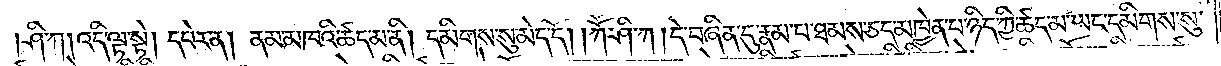ཤི་ཀ །འདི་ལྟ་སྟེ། དཔེར་ན། ནམ་མཁའི་ཚད་མ་ནི། དམིགས་སུ་མེད་དོ། །ཀཽ་ཤི་ཀ །དེ་བཞིན་དུ་རྣམ་པ་ཐམས་ཅད་མཁྱེན་པ་ཉིད་ཀྱི་ཚད་མ་ཡང་དམིགས་སུ་
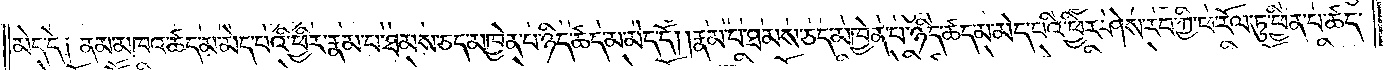མེད་དེ༑ ནམ་མཁའ་ཚད་མ་མེད་པའི་ཕྱིར་རྣམ་པ་ཐམས་ཅད་མཁྱེན་པ་ཉིད་ཚད་མ་མེད་དོ། །རྣམ་པ་ཐམས་ཅད་མཁྱེན་པ་ཉིད་ཚད་མ་མེད་པའི་ཕྱིར་ཤེས་རབ་ཀྱི་ཕ་རོལ་ཏུ་ཕྱིན་པ་ཚད་
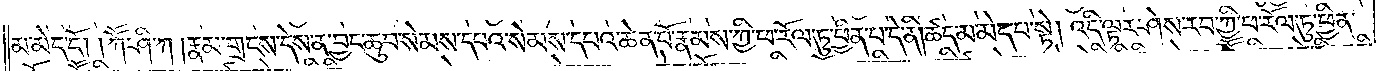མ་མེད་དོ། །ཀཽ་ཤི་ཀ །རྣམ་གྲངས་དེས་ན་བྱང་ཆུབ་སེམས་དཔའ་སེམས་དཔའ་ཆེན་པོ་རྣམས་ཀྱི་ཕ་རོལ་ཏུ་ཕྱིན་པ་དེ་ནི། ཚད་མ་མེད་པ་སྟེ། འདི་ལྟར་ཤེས་རབ་ཀྱི་ཕ་རོལ་ཏུ་ཕྱིན་
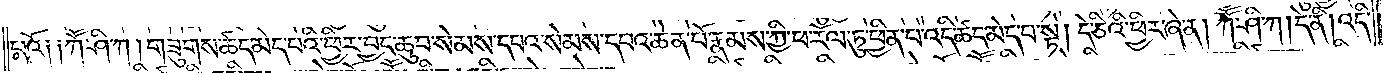པའོ༑ ༑ཀཽ་ཤི་ཀ ། གཟུགས་ཚད་མེད་པའི་ཕྱིར་བྱང་ཆུབ་སེམས་དཔའ་སེམས་དཔའ་ཆེན་པོ་རྣམས་ཀྱི་ཕ་རོལ་ཏུ་ཕྱིན་པ་འདི་ཚད་མེད་པ་སྟེ། དེ་ཅིའི་ཕྱིར་ཞེ་ན། ཀཽ་ཤི་ཀ། དེ་ནི། འདི་
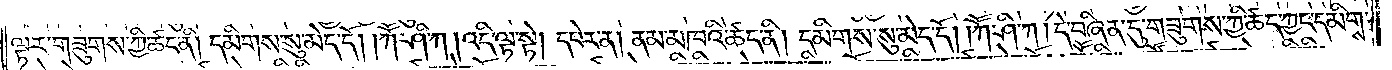ལྟར་གཟུགས་ཀྱི་ཚད་ནི། དམིགས་སུ་མེད་དོ། །ཀཽ་ཤི་ཀ །འདི་ལྟ་སྟེ། དཔེར་ན། ནམ་མཁའི་ཚད་ནི། དམིགས་སུ་མེད་དོ། ཀཽ་ཤི་ཀ ། དེ་བཞིན་དུ་གཟུགས་ཀྱི་ཚད་ཀྱང་དམིགས་
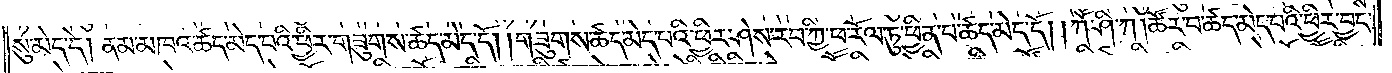སུ་མེད་དེ། ནམ་མཁའ་ཚད་མེད་པའི་ཕྱིར་གཟུགས་ཚད་མེད་དོ། །གཟུགས་ཚད་མེད་པའི་ཕྱིར་ཤེས་རབ་ཀྱི་ཕ་རོལ་ཏུ་ཕྱིན་པ་ཚད་མེད་དོ། །ཀཽ་ཤི་ཀ །ཚོར་བ་ཚད་མེད་པའི་ཕྱིར་བྱང་
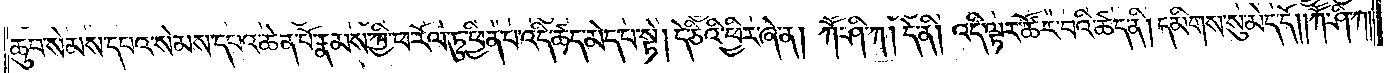ཆུབ་སེམས་དཔའ་སེམས་དཔའ་ཆེན་པོ་རྣམས་ཀྱི་ཕ་རོལ་ཏུ་ཕྱིན་པ་འདི་ཚད་མེད་པ་སྟེ། དེ་ཅིའི་ཕྱིར་ཞེ་ན། ཀཽ་ཤི་ཀ། དེ་ནི། འདི་ལྟར་ཚོར་བའི་ཚད་ནི། དམིགས་སུ་མེད་དོ༎ཀཽ་ཤི་ཀ།
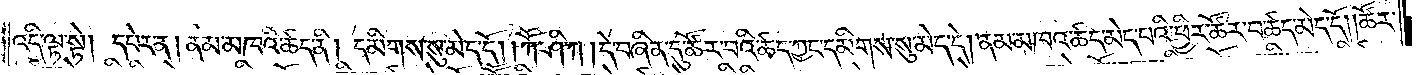འདི་ལྟ་སྟེ། དཔེར་ན། ནམ་མཁའི་ཚད་ནི། དམིགས་སུ་མེད་དོ། །ཀཽ་ཤི་ཀ །དེ་བཞིན་དུ་ཚོར་བའི་ཚད་ཀྱང་དམིགས་སུ་མེད་དེ། ནམ་མཁའ་ཚད་མེད་པའི་ཕྱིར་ཚོར་བ་ཚད་མེད་དོ། །ཚོར་
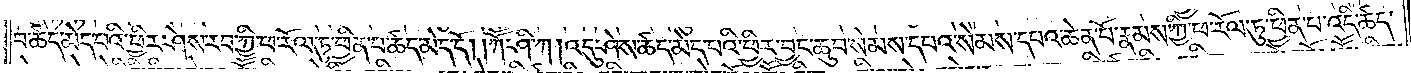བ་ཚད་མེད་པའི་ཕྱིར་ཤེས་རབ་ཀྱི་ཕ་རོལ་ཏུ་ཕྱིན་པ་ཚད་མེད་དོ། །ཀཽ་ཤི་ཀ། འདུ་ཤེས་ཚད་མེད་པའི་ཕྱིར་བྱང་ཆུབ་སེམས་དཔའ་སེམས་དཔའ་ཆེན་པོ་རྣམས་ཀྱི་ཕ་རོལ་ཏུ་ཕྱིན་པ་འདི་ཚད་
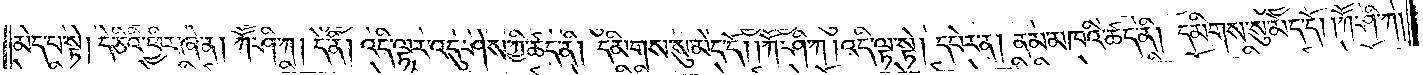མེད་པ་སྟེ། དེ་ཅིའི་ཕྱིར་ཞེ་ན། ཀཽ་ཤི་ཀ། དེ་ནི། འདི་ལྟར་འདུ་ཤེས་ཀྱི་ཚད་ནི། དམིགས་སུ་མེད་དོ། །ཀཽ་ཤི་ཀ །འདི་ལྟ་སྟེ། དཔེར་ན། ནམ་མཁའི་ཚད་ནི། དམིགས་སུ་མེད་དོ། །ཀཽ་ཤི་ཀ།
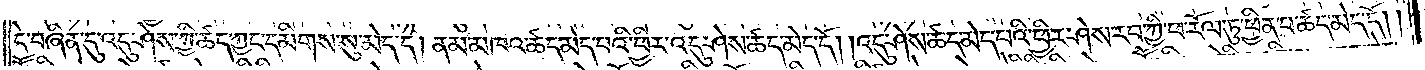དེ་བཞིན་དུ་འདུ་ཤེས་ཀྱི་ཚད་ཀྱང་དམིགས་སུ་མེད་དེ། ནམ་མཁའ་ཚད་མེད་པའི་ཕྱིར་འདུ་ཤེས་ཚད་མེད་དོ། །འདུ་ཤེས་ཚད་མེད་པའི་ཕྱིར་ཤེས་རབ་ཀྱི་ཕ་རོལ་ཏུ་ཕྱིན་པ་ཚད་མེད་དོ། །
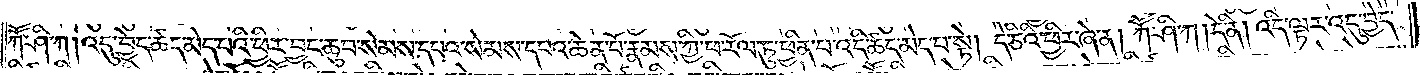ཀཽ་ཤི་ཀ། འདུ་བྱེད་ཚད་མེད་པའི་ཕྱིར་བྱང་ཆུབ་སེམས་དཔའ་སེམས་དཔའ་ཆེན་པོ་རྣམས་ཀྱི་ཕ་རོལ་ཏུ་ཕྱིན་པ་འདི་ཚད་མེད་པ་སྟེ། དེ་ཅིའི་ཕྱིར་ཞེ་ན། ཀཽ་ཤི་ཀ། དེ་ནི། འདི་ལྟར་འདུ་བྱེད་
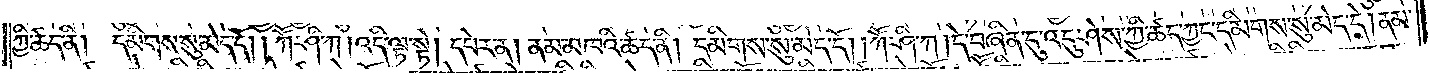ཀྱི་ཚད་ནི། དམིགས་སུ་མེད་དོ། །ཀཽ་ཤི་ཀ །འདི་ལྟ་སྟེ། དཔེར་ན། ནམ་མཁའི་ཚད་ནི། དམིགས་སུ་མེད་དོ། །ཀཽ་ཤི་ཀ །དེ་བཞིན་དུ་འདུ་ཤེས་ཀྱི་ཚད་ཀྱང་དམིགས་སུ་མེད་དེ། ནམ་
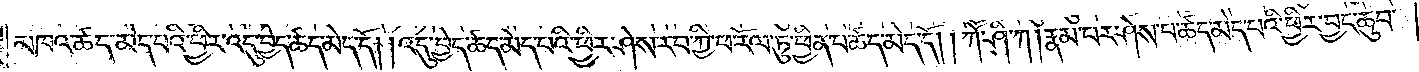མཁའ་ཚད་མེད་པའི་ཕྱིར་འདུ་བྱེད་ཚད་མེད་དོ། །འདུ་བྱེད་ཚད་མེད་པའི་ཕྱིར་ཤེས་རབ་ཀྱི་ཕ་རོལ་ཏུ་ཕྱིན་པ་ཚད་མེད་དོ། །ཀཽ་ཤི་ཀ །རྣམ་པར་ཤེས་པ་ཚད་མེད་པའི་ཕྱིར་བྱང་ཆུབ་
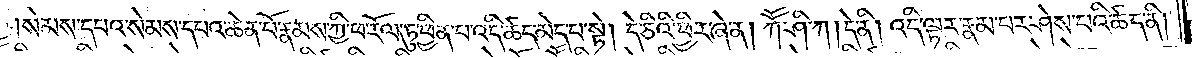སེམས་དཔའ་སེམས་དཔའ་ཆེན་པོ་རྣམས་ཀྱི་ཕ་རོལ་ཏུ་ཕྱིན་པ་འདི་ཚད་མེད་པ་སྟེ། དེ་ཅིའི་ཕྱིར་ཞེ་ན། ཀཽ་ཤི་ཀ། དེ་ནི། འདི་ལྟར་རྣམ་པར་ཤེས་པའི་ཚད་ནི།
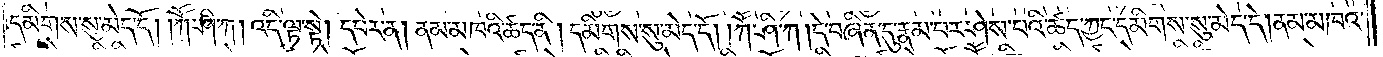དམིགས་སུ་མེད་དོ། །ཀཽ་ཤི་ཀ། འདི་ལྟ་སྟེ། དཔེར་ན། ནམ་མཁའི་ཚད་ནི། དམིགས་སུ་མེད་དོ། །ཀཽ་ཤི་ཀ །དེ་བཞིན་དུ་རྣམ་པར་ཤེས་པའི་ཚད་ཀྱང་དམིགས་སུ་མེད་དེ། ནམ་མཁའ་
